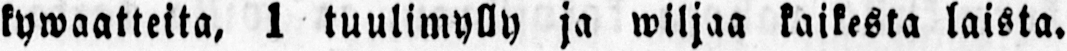kywaatteita, 1 tuulimylly ja wiljaa kaikesta laista.
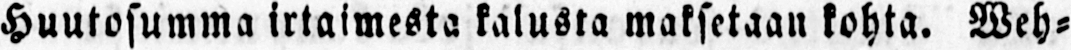Huutosumma irtaimesta kalusta maksetaan kohta. Weh-
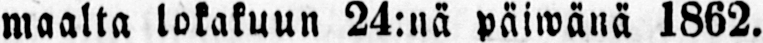maalta lokakuun 24:nä päiwänä 1862.
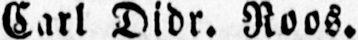Carl Didr. Roos.
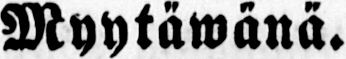Myytäwänä.
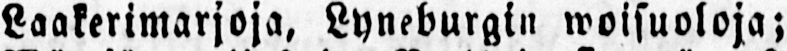Laakerimarjoja, Lyneburgin woisuoloja;
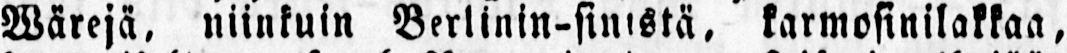Wärejä, niinkuin Berlinin-sinistä, karmosinilakkaa,
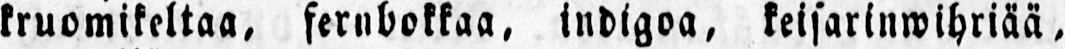kruomikeltaa, fernbokkaa, indigoa, keisarinwihriää,
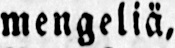mengeliä,
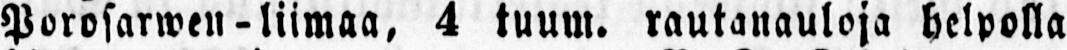Porosarwen-liimaa, 4 tuum. rautanauloja helpolla
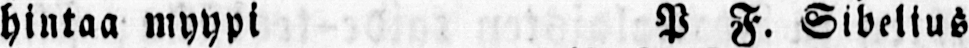hintaa myypi P. F. Sibelius
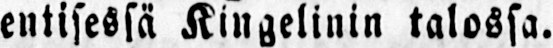entisessä Kingelinin talossa.
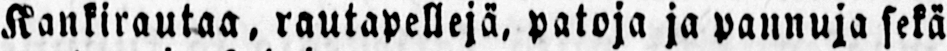Kankirautaa, rautapellejä, patoja ja pannuja sekä
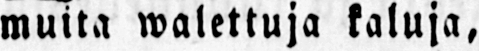muita walettuja kaluja,
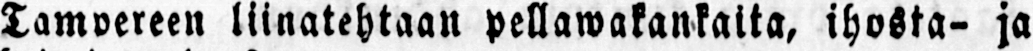Tampereen liinatehtaan pellawakankaita, ihosta- ja
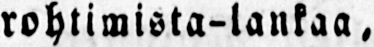rohtimista-lankaa,
